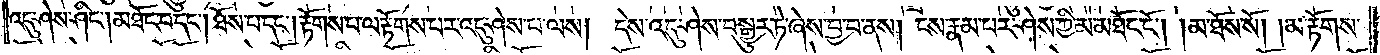འདུ་ཤེས་ཤིང༌། མཐོང་བ་དང༌། ཐོས་པ་དང༌། རྟོགས་པ་ལ་རྟོགས་པར་འདུ་ཤེས་པ་ལས། དེས་འདུ་ཤེས་བསྒྱུར་ཏེ་ཞེས་བྱ་བ་ནས། ངས་རྣམ་པར་ཤེས་ཀྱི་མ་མཐོང་ངོ༌། །མ་ཐོས་སོ། །མ་རྟོགས་
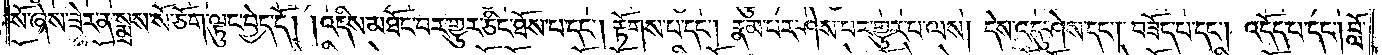སོ་ཞེས་ཟེར་ན་སྨྲས་སོ་ཅོག་ལྟུང་བྱེད་དོ། །འདིས་མཐོང་བར་གྱུར་ཅིང་ཐོས་པ་དང༌། རྟོགས་པ་དང༌། རྣམ་པར་ཤེས་པར་གྱུར་པ་ལས། དེས་འདུ་ཤེས་དང༌། བཟོད་པ་དང༌། འདོད་པ་དང༌། བློ་
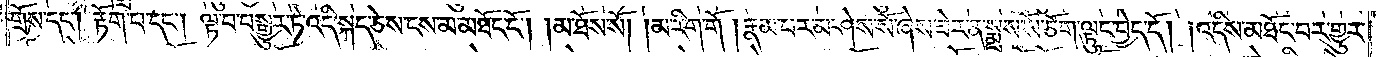གྲོས་དང༌། རྟོག་པ་དང༌། ལྟ་བ་བསྒྱུར་ཏེ་འདི་སྐད་ཅེས་ངས་མ་མཐོང་ངོ༌། །མ་ཐོས་སོ། །མ་རིག་གོ །རྣམ་པར་མ་ཤེས་སོ་ཞེས་ཟེར་ན་སྨྲས་སོ་ཅོག་ལྟུང་བྱེད་དོ། །འདིས་མཐོང་བར་གྱུར་
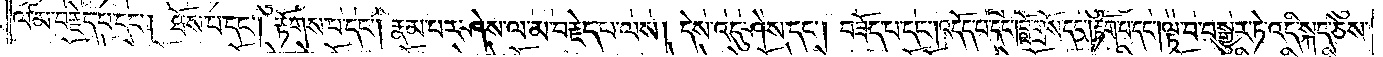ལ་མ་བརྗེད་པ་དང༌། ཐོས་པ་དང༌། རྟོགས་པ་དང༌། རྣམ་པར་ཤེས་ལ་མ་བརྗེད་པ་ལས། དེས་འདུ་ཤེས་དང༌། བཟོད་པ་དང༌། འདོད་པ་དང༌། བློ་གྲོས་དང༌། རྟོག་པ་དང༌། ལྟ་བ་བསྒྱུར་ཏེ་འདི་སྐད་ཅེས་
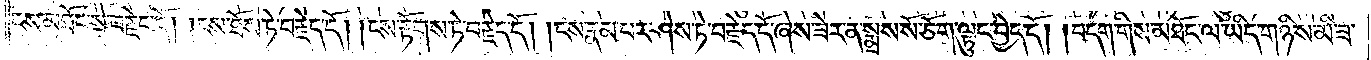ངས་མཐོང་སྟེ་བརྗེད་དོ། །ངས་ཐོས་ཏེ་བརྗེད་དོ། །ངས་རྟོགས་ཏེ་བརྗེད་དོ། །ངས་རྣམ་པར་ཤེས་ཏེ་བརྗེད་དོ་ཞེས་ཟེར་ན་སྨྲས་སོ་ཅོག་ལྟུང་བྱེད་དོ། །བདག་གིས་མཐོང་ལ་ཡིད་གཉིས་མི་ཟ་
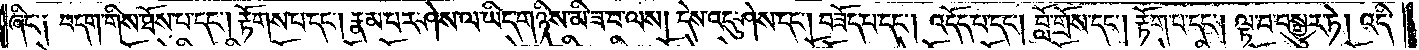ཞིང་༑ བདག་གིས་ཐོས་པ་དང༌། རྟོགས་པ་དང༌། རྣམ་པར་ཤེས་ལ་ཡིད་གཉིས་མི་ཟ་བ་ལས། དེས་འདུ་ཤེས་དང༌། བཟོད་པ་དང༌། འདོད་པ་དང༌། བློ་གྲོས་དང༌། རྟོག་པ་དང༌། ལྟ་བ་བསྒྱུར་ཏེ། འདི་
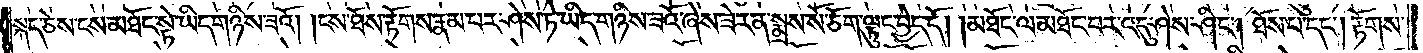སྐད་ཅེས་ངས་མཐོང་སྟེ་ཡིད་གཉིས་ཟའོ། །ངས་ཐོས་རྟོགས་རྣམ་པར་ཤེས་ཏེ་ཡིད་གཉིས་ཟའོ་ཞེས་ཟེར་ན་སྨྲས་སོ་ཅོག་ལྟུང་བྱེད་དོ། །མཐོང་ལ་མཐོང་བར་འདུ་ཤེས་ཤིང༌། ཐོས་པ་དང༌། རྟོགས་
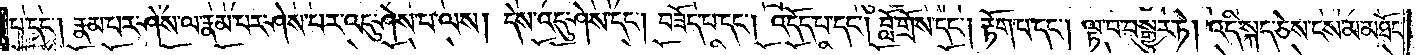པ་དང༌། རྣམ་པར་ཤེས་ལ་རྣམ་པར་ཤེས་པར་འདུ་ཤེས་པ་ལས། དེས་འདུ་ཤེས་དང༌། བཟོད་པ་དང༌། འདོད་པ་དང༌། བློ་གྲོས་དང༌། རྟོག་པ་དང༌། ལྟ་བ་བསྒྱུར་ཏེ། འདི་སྐད་ཅེས་ངས་མ་མཐོང་
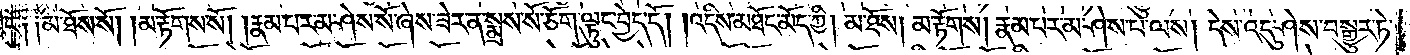ངོ༑ ༑མ་ཐོས་སོ། །མ་རྟོགས་སོ། །རྣམ་པར་མ་ཤེས་སོ་ཞེས་ཟེར་ན་སྨྲས་སོ་ཅོག་ལྟུང་བྱེད་དོ། །འདིས་མཐོང་མོད་ཀྱི། མ་ཐོས། མ་རྟོགས། རྣམ་པར་མ་ཤེས་པ་ལས། དེས་འདུ་ཤེས་བསྒྱུར་ཏེ་
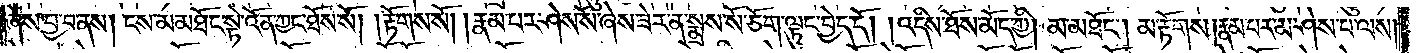ཞེས་བྱ་བ་ནས། ངས་མ་མཐོང་སྟེ་འོན་ཀྱང་ཐོས་སོ། །རྟོགས་སོ། །རྣམ་པར་ཤེས་སོ་ཞེས་ཟེར་ན་སྨྲས་སོ་ཅོག་ལྟུང་བྱེད་དོ། །འདིས་ཐོས་མོད་ཀྱི། མ་མཐོང༌། མ་རྟོགས། རྣམ་པར་མ་ཤེས་པ་ལས།
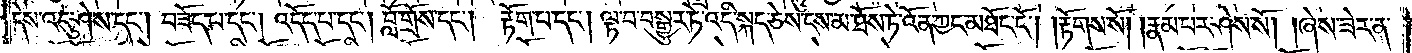དེས་འདུ་ཤེས་དང༌། བཟོད་པ་དང༌། འདོད་པ་དང༌། བློ་གྲོས་དང༌། རྟོག་པ་དང༌། ལྟ་བ་བསྒྱུར་ཏེ་འདི་སྐད་ཅེས་ངས་མ་ཐོས་ཏེ་འོན་ཀྱང་མཐོང་ངོ༌། །རྟོགས་སོ། །རྣམ་པར་ཤེས་སོ། །ཞེས་ཟེར་ན་
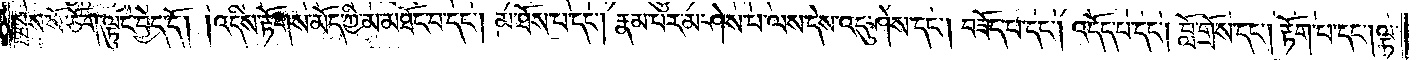སྨྲས་སོ་ཅོག་ལྟུང་བྱེད་དོ། །འདིས་རྟོགས་མོད་ཀྱི་མ་མཐོང་བ་དང༌། མ་ཐོས་པ་དང༌། རྣམ་པར་མ་ཤེས་པ་ལས་དེས་འདུ་ཤེས་དང༌། བཟོད་པ་དང༌། འདོད་པ་དང༌། བློ་གྲོས་དང༌། རྟོག་པ་དང༌། ལྟ་
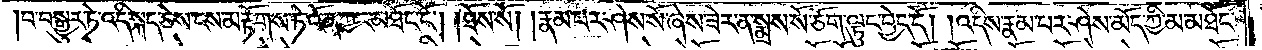།བ་བསྒྱུར་ཏེ་འདི་སྐད་ཅེས་ངས་མ་རྟོགས་ཏེ་འོན་ཀྱང་མཐོང་ངོ༌། །ཐོས་སོ། །རྣམ་པར་ཤེས་སོ་ཞེས་ཟེར་ན་སྨྲས་སོ་ཅོག་ལྟུང་བྱེད་དོ། །འདིས་རྣམ་པར་ཤེས་མོད་ཀྱི་མ་མཐོང་
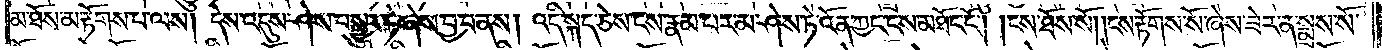མ་ཐོས་མ་རྟོགས་པ་ལས། དེས་འདུ་ཤེས་བསྒྱུར་ཏེ་ཞེས་བྱ་བ་ནས། འདི་སྐད་ཅེས་ངས་རྣམ་པར་མ་ཤེས་ཏེ་འོན་ཀྱང་ངས་མཐོང་ངོ༌། །ངས་ཐོས་སོ། །ངས་རྟོགས་སོ་ཞེས་ཟེར་ན་སྨྲས་སོ་
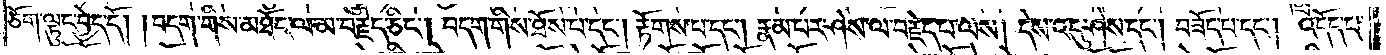ཅོག་ལྟུང་བྱེད་དོ། །བདག་གིས་མཐོང་ལ་མ་བརྗེད་ཅིང༌། བདག་གིས་ཐོས་པ་དང༌། རྟོགས་པ་དང༌། རྣམ་པར་ཤེས་ལ་བརྗེད་པ་ལས། དེས་འདུ་ཤེས་དང༌། བཟོད་པ་དང༌། འདོད་པ་
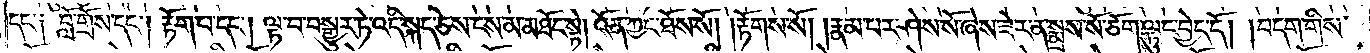དང་༑ བློ་གྲོས་དང༌། རྟོག་པ་དང༌། ལྟ་བ་བསྒྱུར་ཏེ་འདི་སྐད་ཅེས་ངས་མ་མཐོང་སྟེ། འོན་ཀྱང་ཐོས་སོ། །རྟོགས་སོ། །རྣམ་པར་ཤེས་སོ་ཞེས་ཟེར་ན་སྨྲས་སོ་ཅོག་ལྟུང་བྱེད་དོ། །བདག་གིས་
